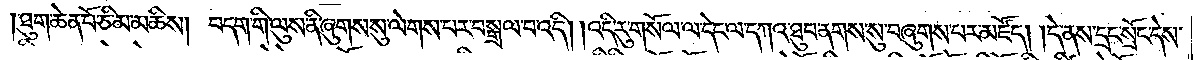ཐུག་ཆེན་པོ་ཅི་མ་མཆིས། བདག་གི་ལུས་ནི་ཞུགས་སུ་ལེགས་པར་བསྒྲལ་བ་འདི། །འདི་རུ་གསོལ་ལ་དེང་ལ་དཀའ་ཐུབ་ནགས་སུ་བཞུགས་པར་མཛོད། །དེ་ནས་དྲང་སྲོང་དེས་
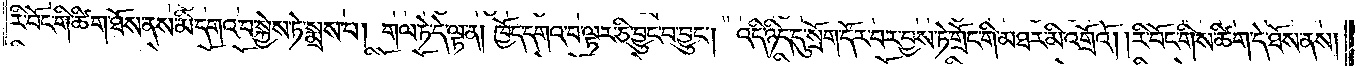རི་བོང་གི་ཚིག་ཐོས་ནས་མི་དགའ་བ་སྐྱེས་ཏེ་སྨྲས་པ། གལ་ཏེ་དེ་ལྟ་ན། ཁྱོད་དགའ་བ་ལྟར་ཅི་བྱུང་བ་བྱུང༌། འདི་ཉིད་དུ་སྲོག་དོར་བར་བྱས་ཏེ་གྲོང་གི་མཐར་མི་འགྲོའོ། །རི་བོང་གིས་ཚིག་དེ་ཐོས་ནས།
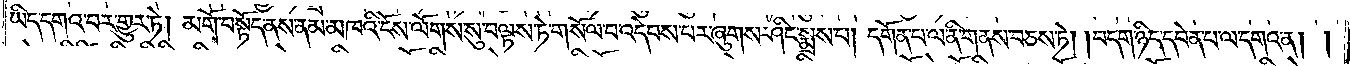ཡིད་དགའ་བར་གྱུར་ཏེ། མགོ་བསྟོད་ནས་ནམ་མཁའི་ངོས་ལོགས་སུ་བལྟས་ཏེ་གསོལ་བ་འདེབས་པར་ཞུགས་ཤིང་སྨྲས་པ། དགོན་པ་ལ་ནི་གནས་བཅས་ཏེ། །བདག་ཉིད་དབེན་པ་ལ་དགའ་ན། །
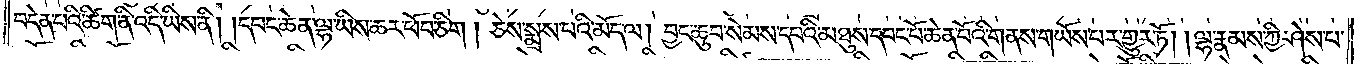བདེན་པའི་ཚིག་ནི་འདི་ཡིས་ནི། །དབང་ཆེན་ལྷ་ཡིས་ཆར་ཕོབ་ཅིག། ཅེས་སྨྲས་པའི་མོད་ལ། བྱང་ཆུབ་སེམས་དཔའི་མཐུས་དབང་པོ་ཆེན་པོའི་གནས་གཡོས་པར་གྱུར་ཏོ། །ལྷ་རྣམས་ཀྱི་ཤེས་པ་
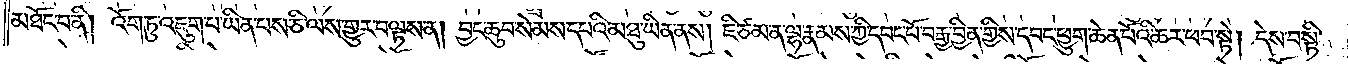མཐོང་བ་ནི། འོག་ཏུ་འཇུག་པ་ཡིན་པས་ཅི་ལས་གྱུར་བལྟས་ན། བྱང་ཆུབ་སེམས་དཔའི་མཐུ་ཡིན་ནས། ཇི་ཙམ་ན་ལྷ་རྣམས་ཀྱི་དབང་པོ་བརྒྱ་བྱིན་གྱིས་དབང་ཕྱུག་ཆེན་པོའི་ཆར་ཕབ་སྟེ། དེས་བསྟི་
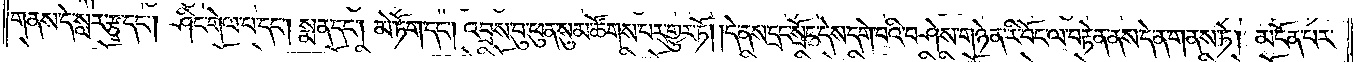གནས་དེ་སླར་རྩྭ་དང༌། ཤིང་གེལ་པ་དང༌། སྨན་དང༌། མེ་ཏོག་དང༌། འབྲས་བུ་ཕུན་སུམ་ཚོགས་པར་གྱུར་ཏོ། །དེ་ནས་དྲང་སྲོང་དེས་དགེ་བའི་བཤེས་གཉེན་རི་བོང་ལ་བརྟེན་ནས་དེ་ན་གནས་ཏེ། མངོན་པར་
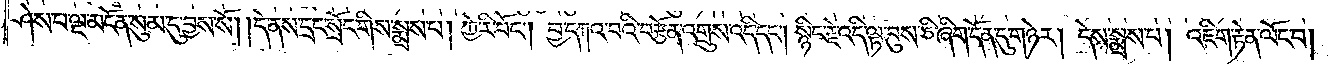ཤེས་པ་ལྔ་མངོན་སུམ་དུ་བྱས་སོ། །དེ་ནས་དྲང་སྲོང་གིས་སྨྲས་པ། ཀྱེ་རི་བོང༌། བྱ་དཀའ་བའི་བརྩོན་འགྲུས་འདི་དང༌། སྙིང་རྗེ་འདི་ལྟ་བུས་ཅི་ཞིག་དོན་དུ་གཉེར། དེས་སྨྲས་པ། འཇིག་རྟེན་ལོང་བ།
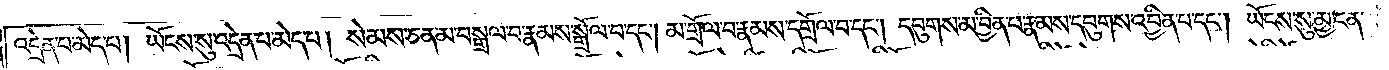འདྲེན་པ་མེད་པ། ཡོངས་སུ་འདྲེན་པ་མེད་པ། སེམས་ཅན་མ་བསྒྲལ་བ་རྣམས་སྒྲོལ་བ་དང༌། མ་གྲོལ་བ་རྣམས་དགྲོལ་བ་དང༌། དབུགས་མ་བྱིན་པ་རྣམས་དབུགས་འབྱིན་པ་དང༌། ཡོངས་སུ་མྱ་ངན་
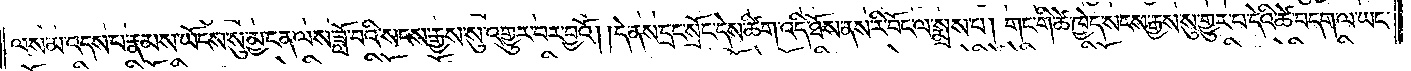ལས་མ་འདས་པ་རྣམས་ཡོངས་སུ་མྱ་ངན་ལས་ཟློ་བའི་སངས་རྒྱས་སུ་འགྱུར་བར་བྱའོ། །དེ་ནས་དྲང་སྲོང་དེས་ཚིག་འདི་ཐོས་ནས་རི་བོང་ལ་སྨྲས་པ། གང་གི་ཚེ་ཁྱེད་སངས་རྒྱས་སུ་གྱུར་པ་དེའི་ཚེ་བདག་ལ་ཡང་
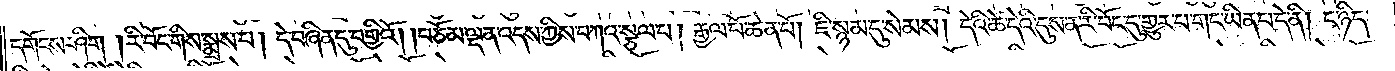དགོངས་ཤིག །རི་བོང་གིས་སྨྲས་པ། དེ་བཞིན་དུ་བགྱིའོ། །བཅོམ་ལྡན་འདས་ཀྱིས་བཀའ་སྩལ་པ། རྒྱལ་པོ་ཆེན་པོ། ཇི་སྙམ་དུ་སེམས། དེའི་ཚེ་དེའི་དུས་ན་རི་བོང་དུ་གྱུར་པ་གང་ཡིན་པ་དེ་ནི། ང་ཉིད་
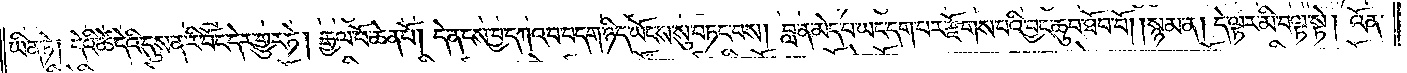ཡིན་ཏེ། དེའི་ཚེ་དེའི་དུས་ན་རི་བོང་དེར་གྱུར་ཏེ། རྒྱལ་པོ་ཆེན་པོ། དེ་ན་ངས་བྱ་དཀའ་བ་བདག་ཉིད་ཡོངས་སུ་བཏང་བས། བླ་ན་མེད་པ་ཡང་དག་པར་རྫོགས་པའི་བྱང་ཆུབ་ཐོབ་བོ། །སྙམ་ན། དེ་ལྟར་མི་བལྟ་སྟེ། འོན་
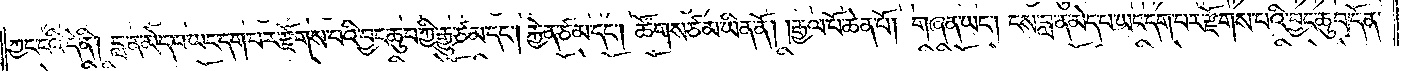ཀྱང་ངའི་དེ་ནི། བླ་ན་མེད་པ་ཡང་དག་པར་རྫོགས་པའི་བྱང་ཆུབ་ཀྱི་རྒྱུ་ཙམ་དང༌། རྐྱེན་ཙམ་དང༌། ཚོགས་ཙམ་ཡིན་ནོ། །རྒྱལ་པོ་ཆེན་པོ། གཞན་ཡང༌། ངས་བླ་ན་མེད་པ་ཡང་དག་པར་རྫོགས་པའི་བྱང་ཆུབ་དོན་
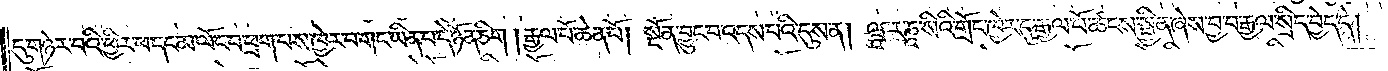དུ་གཉེར་བའི་ཕྱིར་ཕ་དང་མ་ལོང་བ་ཕྲག་པས་ཁྱེར་བ་གང་ཡིན་པ་དེ་ཉོན་ཅིག །རྒྱལ་པོ་ཆེན་པོ། སྔོན་བྱུང་བ་འདས་པའི་དུས་ན། ཝཱ་ར་ཎཱ་སིའི་གྲོང་ཁྱེར་དུ་རྒྱལ་པོ་ཚངས་སྦྱིན་ཞེས་བྱ་བ་རྒྱལ་སྲིད་བྱེད་དེ།
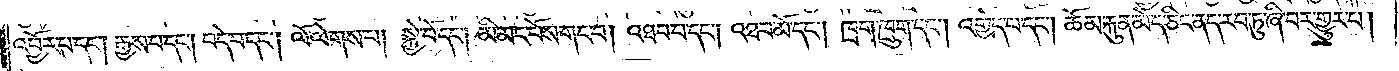འབྱོར་པ་དང༌། རྒྱས་པ་དང༌། བདེ་བ་དང༌། ལོ་ལེགས་པ། སྐྱེ་བོ་དང༌། མི་མང་པོས་གང་བ། འཐབ་པ་དང༌། འཐབ་མོ་དང༌། ཁྲག་ཁྲུག་དང༌། འགྱེད་པ་དང༌། ཆོམ་རྐུན་མེད་ཅིང་ནད་རབ་ཏུ་ཞི་བར་གྱུར་པ།
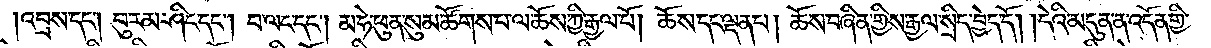།འབྲས་དང༌། བུ་རམ་ཤིང་དང༌། བ་ལང་དང༌། མ་ཧེ་ཕུན་སུམ་ཚོགས་པ་ལ་ཆོས་ཀྱི་རྒྱལ་པོ། ཆོས་དང་ལྡན་པ། ཆོས་བཞིན་གྱིས་རྒྱལ་སྲིད་བྱེད་དོ། །དེའི་མདུན་ན་འདོན་གྱི་
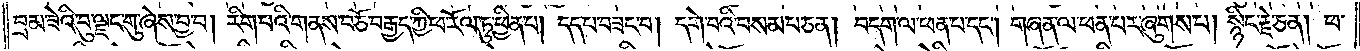བྲམ་ཟེའི་བུ་ལྗང་གུ་ཞེས་བྱ་བ། རིག་པའི་གནས་བཅོ་བརྒྱད་ཀྱི་ཕ་རོལ་ཏུ་ཕྱིན་པ། དད་པ་བཟང་བ། དགེ་བའི་བསམ་པ་ཅན། བདག་ལ་ཕན་པ་དང༌། གཞན་ལ་ཕན་པར་ཞུགས་པ། སྙིང་རྗེ་ཅན། ཕ་
